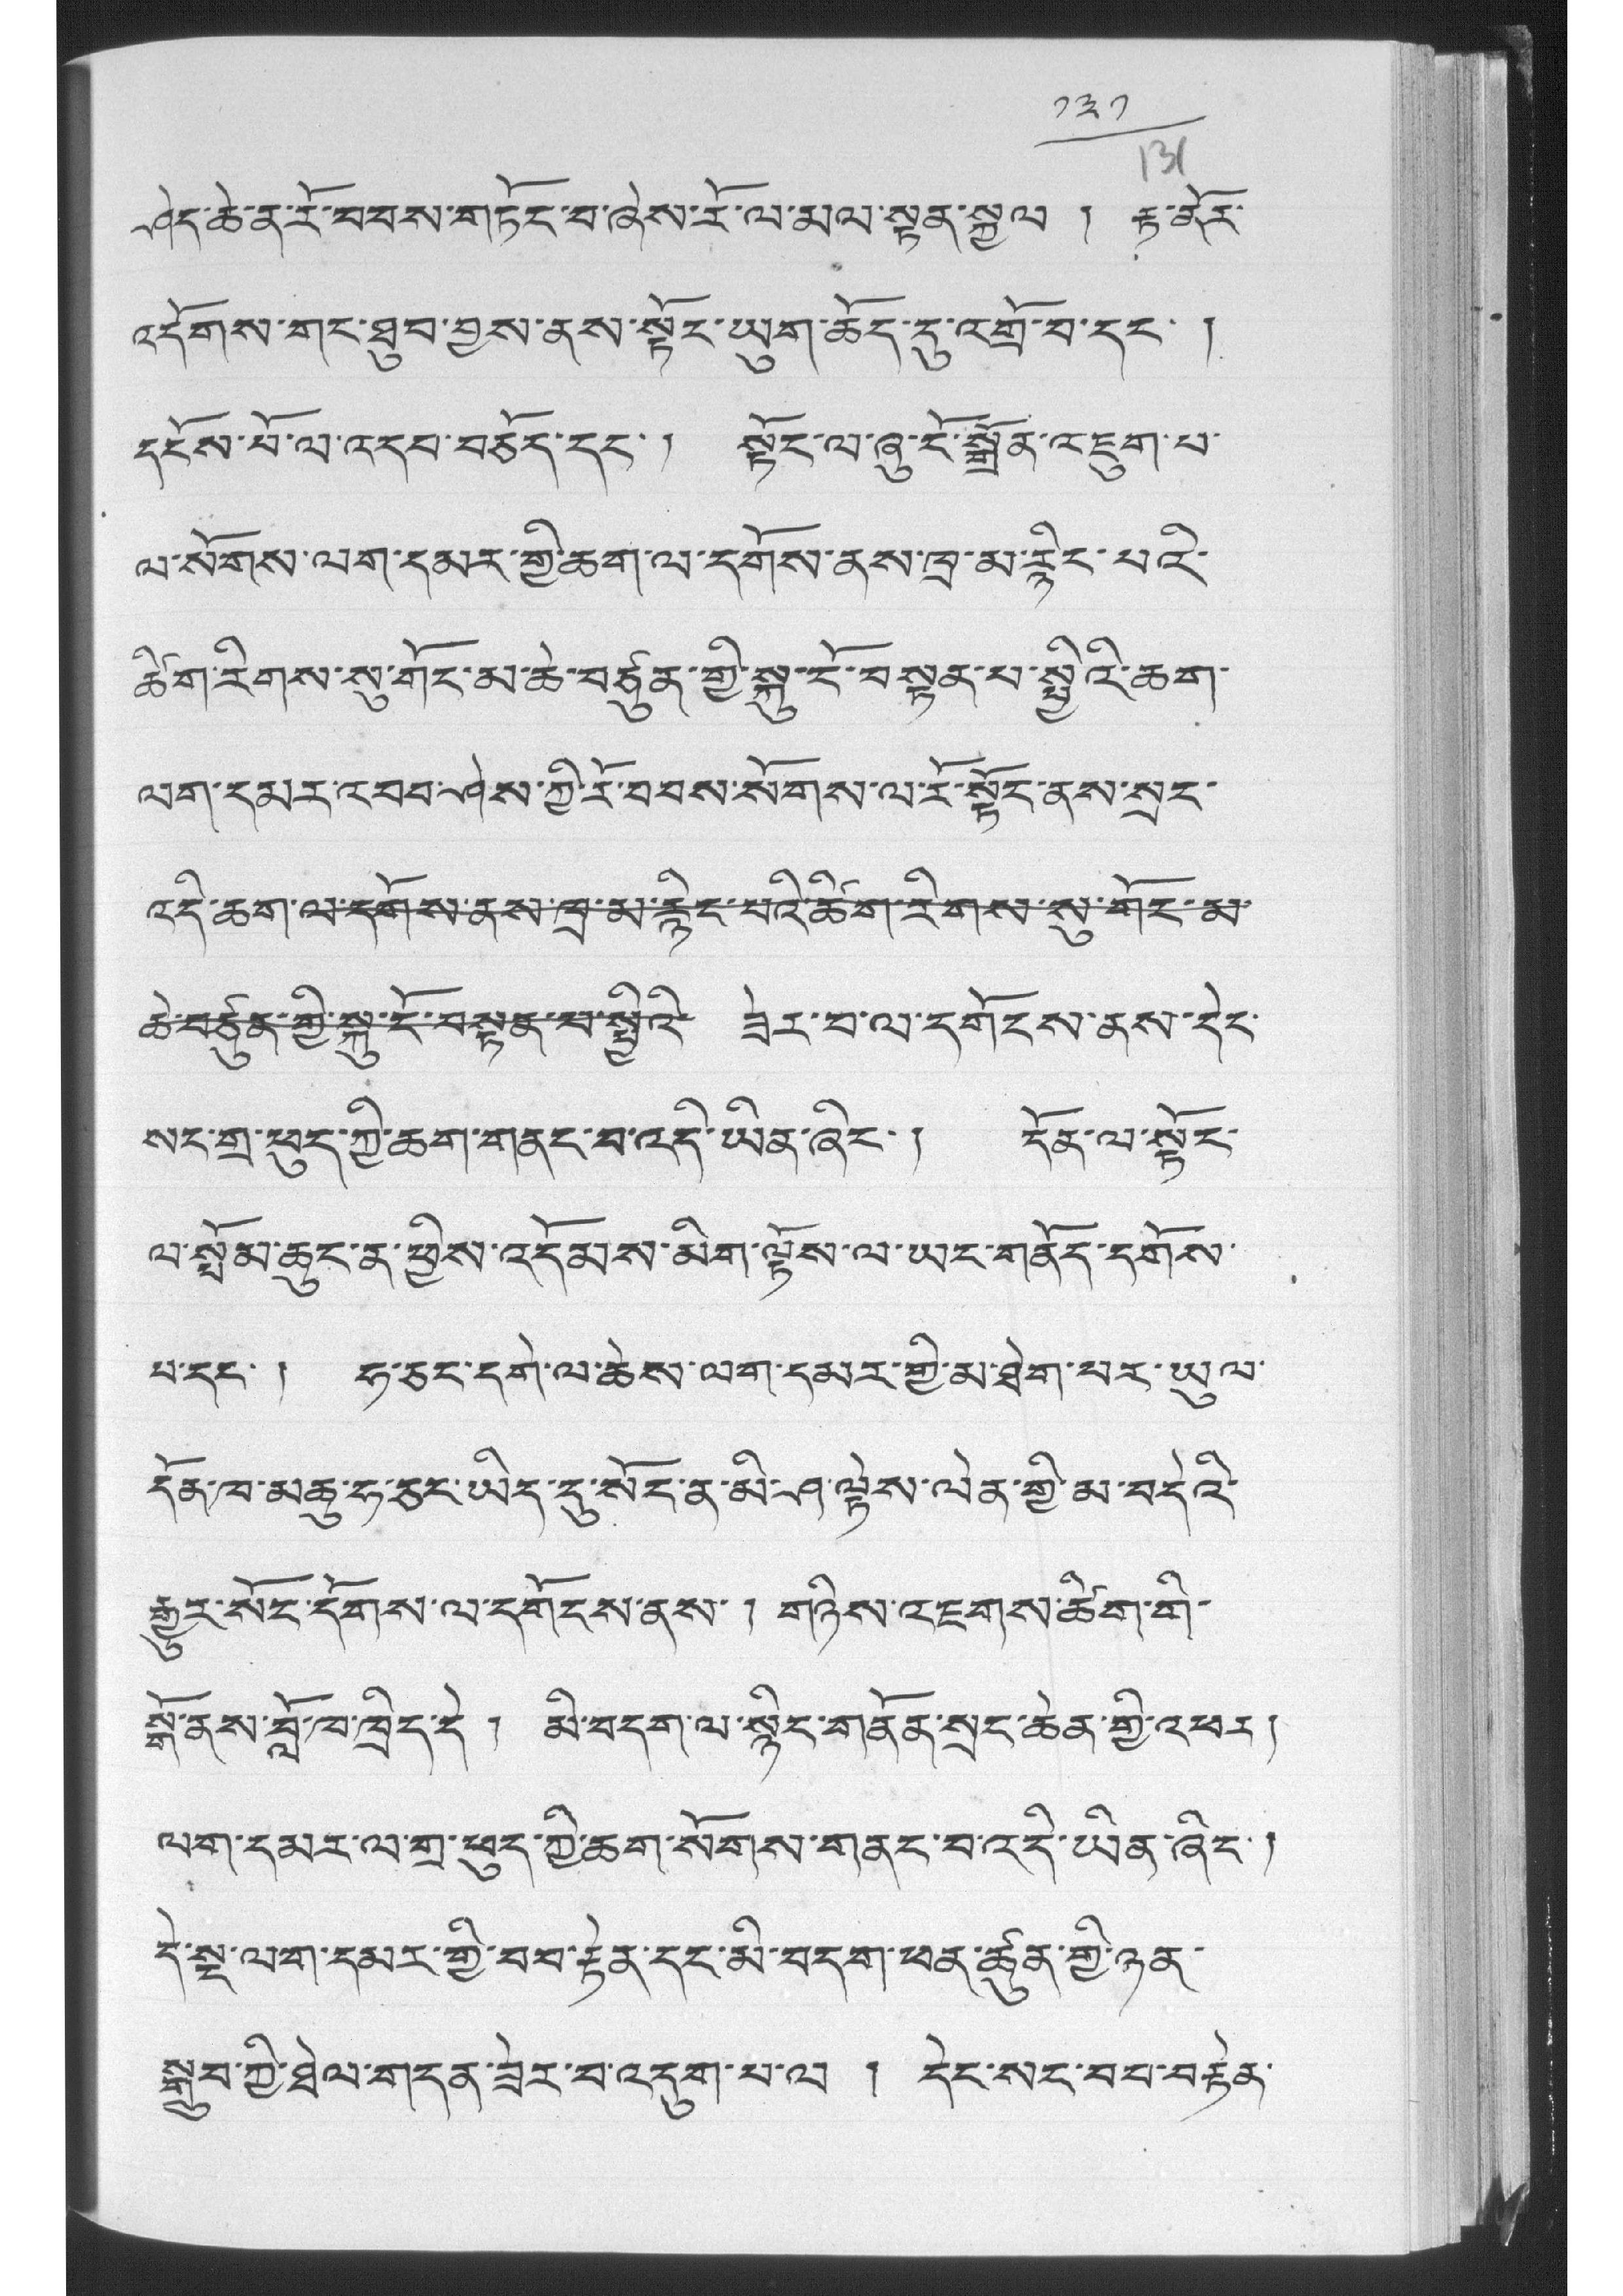༡༣༡
ཤེད་ཆེ་ན་རོ་བབས་གཏོང་བ་ཞེས་རོ་ལ་མལ་སྟོན་སྐྱེལ ། རྟ་ནོར་
འདོགས་གང་ཐུབ་བྱས་ནས་སྟོང་ཡུག་ཆོད་དུ་འགྲོ་བ་དང་ །
དངོས་པོ་ལ་འདབ་བཅོད་དང་། སྟོང་ལ་ཞུ་ངོ་སྒྲོན་འཇུག་པ་
ལ་སོགས་ལག་དམར་གྱི་ཆག་ལ་དགོས་ནས་ཁྲ་མ་རྙིང་པའི་
ཚིག་རིགས་སུ་གོང་མ་ཆེ་བཙུན་གྱི་སྐུ་ངོ་བསྟན་པ་སྤྱིའི་ཆག་
ལག་དམར་འབབ་ཤེས་ཀྱི་རོ་བབས་སོགས་ལ་རོ་སྟོང་ནས་སྲང་
འདི་ཆག་ལ་དགོས་ནས་ཁྲ་མ་རྙིང་པའི་ཚིག་རིགས་སུ་གོང་མ་
ཆེ་བཙུན་གྱི་སྐུ་ངོ་བསྟན་པ་སྤྱིའི་ ཟེར་བ་ལ་དགོངས་ནས་དེང་
སང་གྲ་ཕུད་ཀྱི་ཆག་གནང་བ་འདི་ཡིན་ཞིང་། དོན་ལ་སྟོང་
ལ་སྤོམ་ཆུང་ན་ཕྱིས་འདོམས་མིག་ལྟོས་ལ་ཡང་གནོད་དགོས་
པ་དང་། ཧ་ཅང་དགེ་ལ་ཆེས་ལག་དམར་གྱི་མ་ཐེག་པར་ཡུལ་
དོན་ཁ་མཆུ་ཧ་ཅང་ཡིད་དུ་སོང་ན་མི་ཤ་ལྟེས་ལེན་གྱི་མ་བདེའི་
རྒྱུར་སོང་དོགས་ལ་དགོངས་ནས་ ། གཉིས་འཇགས་ཚིག་གི་
སྒོ་ནས་བློ་ཁ་ཁྲིད་དེ ། མི་བདག་ལ་སྙིང་གནོན་སྲང་ཆེན་གྱི་འཕར།
ལག་དམར་ལ་གྲ་ཕུད་ཀྱི་ཆག་སོགས་གནང་བ་འདི་ཡིན་ཞིང་།
དེ་སྔ་ལག་དམར་གྱི་བབ་རྟེན་དང་མི་བདག་ཕན་ཚུན་གྱི་ཉན་
སྒྲུབ་ཀྱི་ཐེལ་གདན་ཟེར་བ་འདུག་པ་ལ ། དེང་སང་བབ་བརྟེན་
